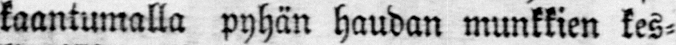kaantumalla pyhän haudan munkkien kes-
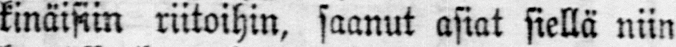kinäisiin riitoihin, saanut asiat siellä niin
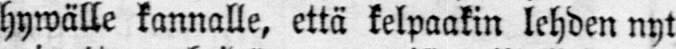hywälle kannalle, että kelpaakin lehden nyt
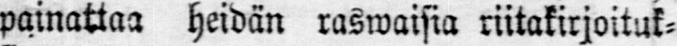painattaa heidän raswaisia riitakirjoituk-
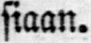siaan.
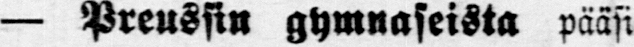— Preussin gymnaseista pääsi
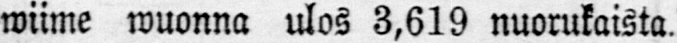wiime wuonna ulos 3,619 nuorukaista.
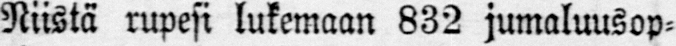Niistä rupesi lukemaan 832 jumaluusop-
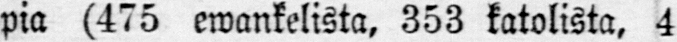pia (475 ewankelista, 353 katolista, 4
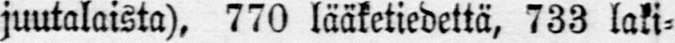juutalaista), 770 lääketiedettä, 733 laki-
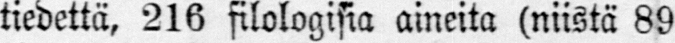tiedettä, 216 filologisia aineita (niistä 89
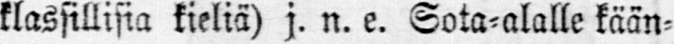klassillisia kieliä) j. n. e. Sota-alalle kään-
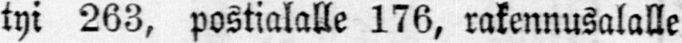tyi 263, postialalle 176, rakennusalalle
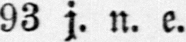93 j. n. e.
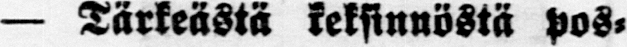— Tärkeästä keksinnöstä pos-
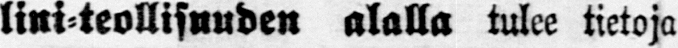lini-teollisuuden alalla tulee tietoja
